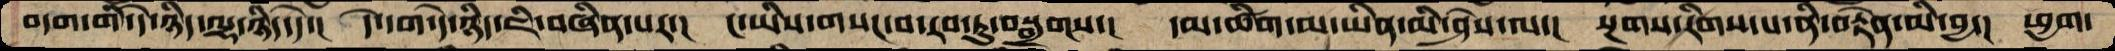བདག་གི་དེ་ཉིད་ལྷ་ཉིད་དེ་།  དེ་དག་དེ་ཉིད་ཇི་བཞིན་པར་།  ང་ཡིས་གསང་བ་རབ་ཏུ་བསྒྲགས་།  དམ་ཚིག་མ་ཡིན་མི་ཤེས་ལ་།  སྔགས་རིགས་པ་ནི་བརྟེན་མི་བྱ་།  ཕྱག་
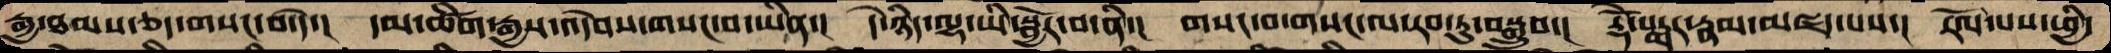རྒྱ་ཐམས་ཅད་གསང་བ་དེ་།  དམ་ཚིག་རྒྱས་འདེབས་གསང་བ་ཡིན་།  དེ་ཉིད་ལྷ་ཡི་སྦྱོར་བ་ནི་།  གསང་བ་གསང་ལ་རབ་ཏུ་བསྒྲུབ་།  རྡོེ་པདྨར་རྣམ་མཛད་པས་།  རོལ་པས་ཕྱི་
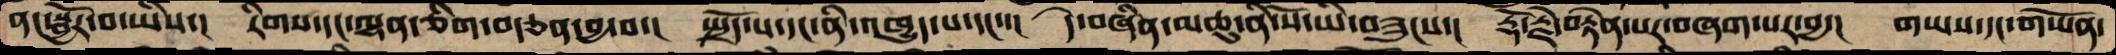ནང་སྦྱོར་བ་ཡིས་།  རིགས་དང་ལྷན་ཅིག་བདཅན་བྱ་བ་།  སྤྲོད་པ་དང་ནི་འཁྱུད་པ་དང་་།  དེ་བཞིན་མཆུ་ནི་སོ་ཡི་བཟུངས་།  རྡོ་རྗེ་བརྟེན་པར་བཞག་པར་བྱ་།  གཡས་དང་གཡོན་
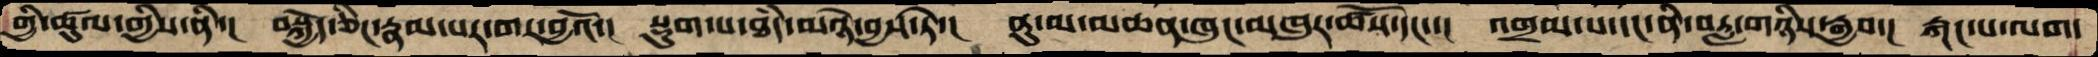གྱི་ཚུལ་གྱིས་ནི་།  བསྐྱོད་ཅིང་རྣམ་པར་གར་བྱའོ་།  སྡུག་པ་ཐཾད་མཉེ་བྱསཏེ་།  ནུ་མ་མཆན་ཁུང་མཁུར་ཚོས་དང་་།  འགྲམ་པ་དང་ནི་བརླ་གཉིས་རྒྱབ་།  རྐང་པ་ལག་
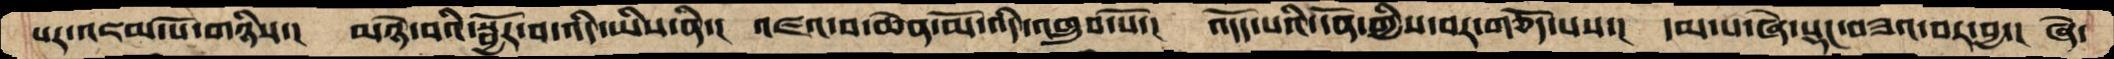པར་འཇམ་པོ་གཉིས་།  མཉེ་བའི་སྦྱོར་བ་འདི་ཡིས་ནི་།  འཇའ་བ་ཆེན་མོ་འདི་འཁྲུས་སོ་།  འདོད་པའི་དོན་གྱིས་བར་གཅོད་པས་།  དམ་པ་ཞེ་སྡང་བཟའ་བར་བྱ་།  ཞེ་
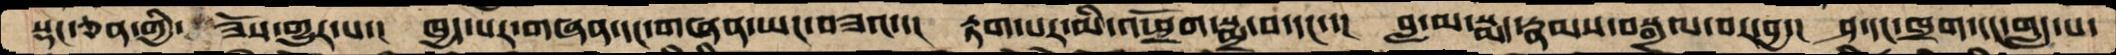སྡང་ཅན་གྱི་ ཟོས་གྱུར་པ་།  ཁྱད་པར་གཞན་དང་གཞན་ཡང་བཟའ་།  རྟག་པར་མི་འཕྲོག་སྨྲ་བ་དང་་།  བླ་མ་སྨད་རྣམས་བསྒྲལ་བར་བྱ་།  ཤ་དང་ཁྲག་དང་གླད་པ་
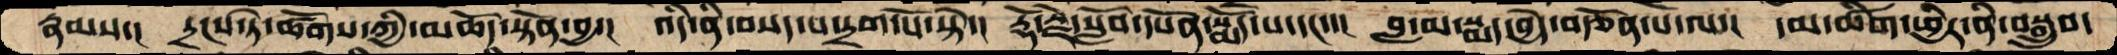རྣམས་།  དྲངས་ཏེ་ཚོགས་ཀྱི་མཆོད་སྟོན་བྱ་།  འདི་ནི་བསད་པ་དྲག་པོ་སྟེ་།  རྡོ་རྗེ་སློབ་དཔོན་སྨོད་པ་དང་་།  བླ་མ་སྨད་བྱེད་བརྩོན་པ་ལ་།  དམ་ཚིག་ཕྱིར་ནི་བསྒྲུབ་
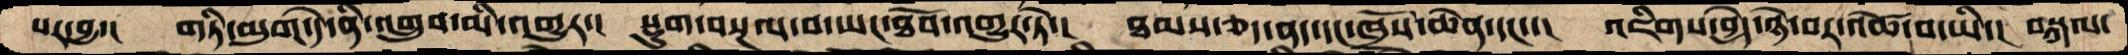པར་བྱ་།  གཏི་མུག་དེ་ནི་འགྲུབ་མི་འགྱུར་།  སྡུག་བསྔལ་བ་ཡང་ཐོབ་འགྱུར་ཏེ་།  ཐམས་ཅད་ནད་དང་ཁྲོས་ཆེན་དང་་།  འཇིགས་བྱེད་ཉེ་བར་འཚེ་བ་ཡི་།  བསྐལ་
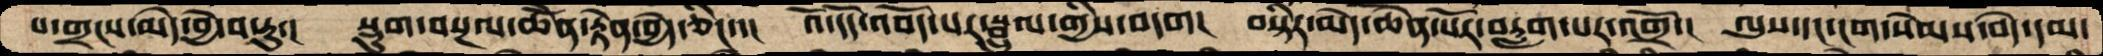པ་གྲངས་མེད་བྱེ་བ་རུ་།  སྡུག་བསྔལ་ཆེནོ་རྟེན་བྱེད་ཅིང་་།  འོ་དོད་འབོད་པར་སྦྲུལ་གྱིས་བདག་།  བསྟིར་མེད་ཆེན་པོར་བརླག་པར་འགྲོ་།  ལུས་དང་ངག་སེམས་བདེ་དམ་
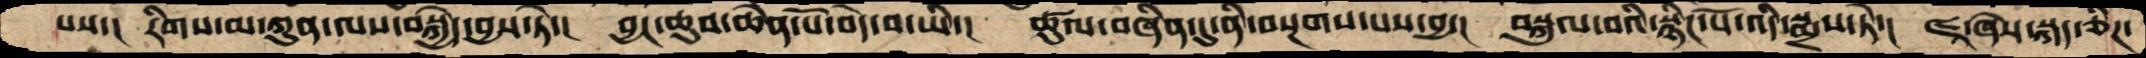པས་།  རིགས་མ་ཀུན་ལས་བསྐྱེད་བྱས་ཏེ་།  བྱང་ཆུབ་ཆེན་པོ་བདེ་བ་ཡི་།  ཚུལ་བཞིན་དུ་ནི་བསྔགས་པས་བྱ་།  བསྐུལ་བའི་སྙིང་པོ་འདི་སྨྲས་ཏེ་།  ཛཱ་ཞེས་སྐད་ཅིཌ་
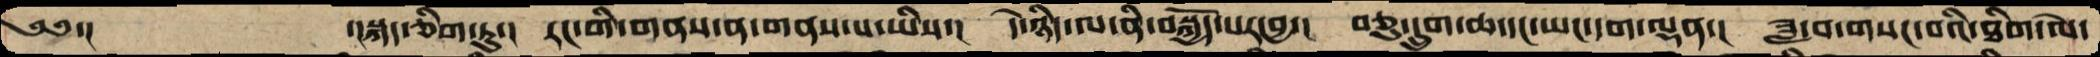༄༅་།         ་།སྐད་ཅིག་ཏུ་།  རང་གི་གནས་ན་གནས་པ་ཡིས་།  དེ་ཉིད་ལ་ནི་བསྐྱོད་པར་བྱ་།  བཅུ་དྲུག་ཆ་དང་ཡང་དག་ལྡན་།  ཟླ་བ་གསང་བའི་ཐིག་ལེ་
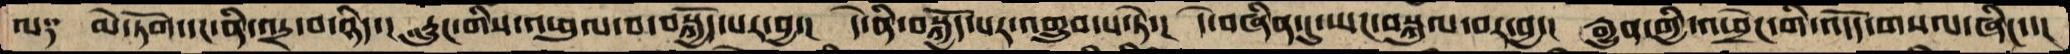ལ༑   མེ་ཏོག་དང་ནི་འདྲ་བ་ཉིད་།  རླུང་གིས་འཕུལ་བ་བསྐྱོད་པར་བྱ་།  དེ་ནི་བསྐྱོད་པར་འགྲུབ་པ་ཏེ་།  དེ་བཞིན་དུ་ཡང་བསྐུལ་བར་བྱ་།  རྒྱུན་གྱི་འཕྲེང་གི་འདོད་གསལ་ཞིང་་།
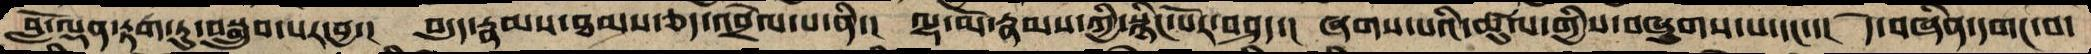བློ་ལྡན་རྟག་ཏུ་བསྒྲུབ་པར་བྱ་།  བདུད་རྣམས་ཐམས་ཅད་འབྲེལ་པ་ནི་།  ལྷ་མོ་རྣམས་ཀྱི་སྙིང་པོར་བཤད་།  ཞགས་པའི་ཚུལ་གྱིས་བཞུགས་པ་དང་་།  དེ་བཞིན་དགང་བ་
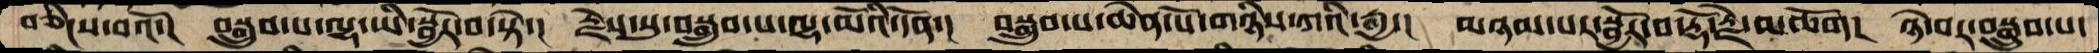བཅིངས་བའོ་།    བསྒྲུབ་པ་ལྷ་ཡི་སྦྱོར་བ་སྟེ་།  རྗེས་སུ་བསྒྲུབ་པ་ལྷ་མོའི་དོན་།  བསྒྲུབ་པ་ཆེན་པོ་གཉིས་ཀའི་རྒྱ་།  མཉམ་པར་སྦྱོར་བ་རྡོ་རྗེ་མཆོག་།  ཉེར་བར་བསྒྲུབ་པ་
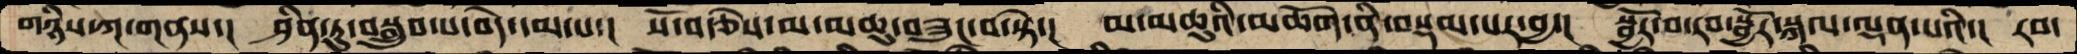གཉིས་ཀ་གནས་།  ཤིན་ཏུ་བསྒྲུབ་པ་བདེ་དམ་པ་།  སོ་བརྩེས་མ་མཆུ་བཟུང་བ་སྟེ་།  མ་མཆུའི་མཆོག་ནི་བསྡམ་པར་བྱ་།  སྦྱོར་བ་རབ་སྦྱོར་སྐལ་ལྡན་པའི་།  རབ་
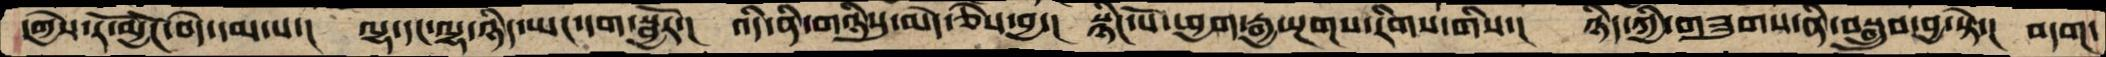དགྱེས་རོ་མྱོང་བདེ་དམ་པ་།  ལྷ་དང་ལྷ་ཉིད་ཡང་དག་སྦྱོར་།  འདི་ནི་གཉིསུ་མེད་ཅེས་བྱ་།  སྙིང་པོ་ཕྱག་རྒྱ་སྔགས་རིགས་གིས་།  ཉིད་ཀྱི་གཟུགས་ནི་བསྒྲུབ་བྱ་སྟེ་།  བདག་
